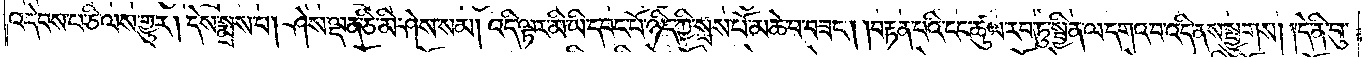འདེབས་པ་ཅི་ལས་གྱུར། དེས་སྨྲས་པ། ཤེས་ལྡན་ཅི་མི་ཤེས་སམ། འདི་ལྟར་མི་ཡི་དབང་པོ་ཉིད་ཀྱི་སྲས་པོ་མཆེ་བ་བཟང༌། །བརྟན་པའི་ངང་ཚུལ་རབ་ཏུ་སྦྱིན་ལ་དགའ་བ་འདི་ནས་སྤྱུགས། །དེ་ནི་བུ་
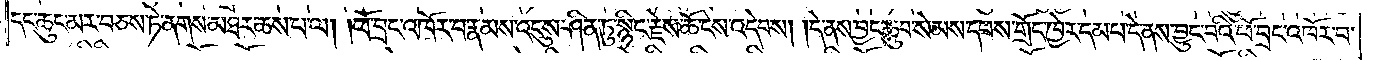དང་ཆུང་མར་བཅས་ཏེ་ནགས་མཐར་ཆས་པ་ལ། །ཕོ་བྲང་འཁོར་བ་རྣམས་འདུས་ཤིན་ཏུ་སྙིང་རྗེས་ཆོ་ངེས་འདེབས། །དེ་ནས་བྱང་ཆུབ་སེམས་དཔས་གྲོང་ཁྱེར་དམ་པ་དེ་ནས་བྱུང་བའི་ཕོ་བྲང་འཁོར་བ་
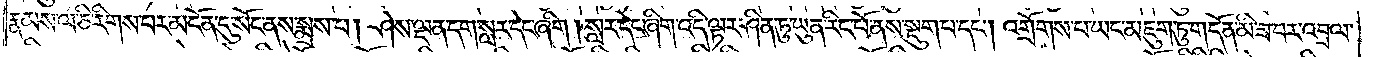རྣམས་ལ་ཅི་རིགས་པར་མངོན་དུ་སོང་ནས་སྨྲས་པ། ཤེས་ལྡན་དག་སླར་དེང་ཞིག །སླར་དེང་ཞིག་འདི་ལྟར་ཤིན་ཏུ་ཡུན་རིང་པོ་ནས་སྡུག་པ་དང༌། འགྲོགས་པ་ཡང་མཇུག་ཏུ་གདོན་མི་ཟ་བར་འབྲལ་
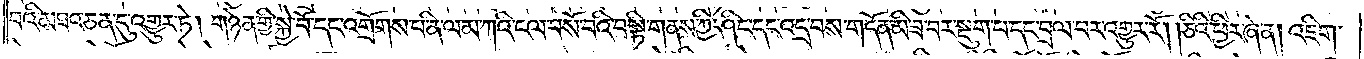བའི་མཐའ་ཅན་དུ་འགྱུར་ཏེ། གཉེན་གྱི་སྐྱེ་བོ་དང་འགྲོགས་པ་ནི་ལམ་ཀའི་ངལ་བསོ་བའི་བསྟི་གནས་ཀྱི་ཤིང་དང་འདྲ་བས་གདོན་མི་ཟ་བར་སྡུག་པ་དང་བྲལ་བར་འགྱུར་རོ། །ཅིའི་ཕྱིར་ཞེ་ན། འཇིག་
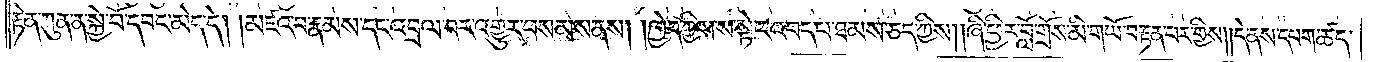རྟེན་ཀུན་ན་སྐྱེ་བོ་དབང་མེད་དེ། །མཛའ་བ་རྣམས་དང་འབྲལ་བར་འགྱུར་བསམས་ནས། །ཁྱེད་ཀྱིས་ས་སྟེང་འབད་པ་ཐམས་ཅད་ཀྱིས། །ཞི་ཕྱིར་བློ་གྲོས་མི་གཡོ་བརྟན་པར་གྱིས། །དེ་ནས་དཔག་ཚད་
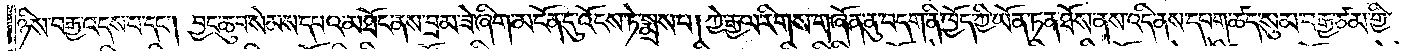ཉིས་བརྒྱ་འདས་པ་དང༌། བྱང་ཆུབ་སེམས་དཔའ་མཐོང་ནས་བྲམ་ཟེ་ཞིག་མངོན་དུ་འོངས་ཏེ་སྨྲས་པ། ཀྱེ་རྒྱལ་རིགས་གཞོན་ནུ་བདག་ནི་ཁྱོད་ཀྱི་ཡོན་ཏན་ཐོས་ནས་འདི་ནས་དཔག་ཚད་སུམ་བརྒྱ་ཙམ་གྱི་
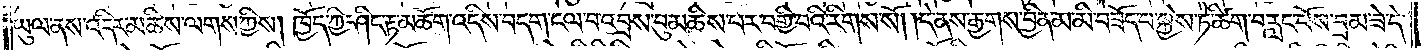ཡུལ་ནས་འདིར་མཆིས་ལགས་ཀྱིས། ཁྱོད་ཀྱི་ཤིང་རྟ་མཆོག་འདིས་བདག་ངལ་བ་འབྲས་བུ་མཆིས་པར་བགྱི་བའི་རིགས་སོ། །དེ་ནས་རྒྱགས་བྱིན་མ་མི་བཟོད་པ་སྐྱེས་ཏེ་ཚིག་བརླང་པོས་བྲམ་ཟེ་དེ་
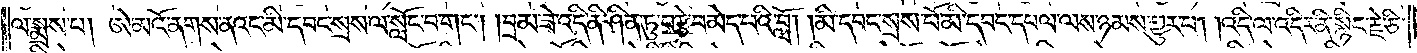ལ་སྨྲས་པ། ཨེ་མའོ་ནགས་ནའང་མི་དབང་སྲས་ལ་སློང་བ་གང༌། །བྲམ་ཟེ་འདི་ནི་ཤིན་ཏུ་བརྩེ་བ་མེད་པའི་བློ། །མི་དབང་སྲས་པོ་མི་དབང་དཔལ་ལས་ཉམས་གྱུར་པ། །འདི་ལ་འདིར་ནི་སྙིང་རྗེ་ཅི་
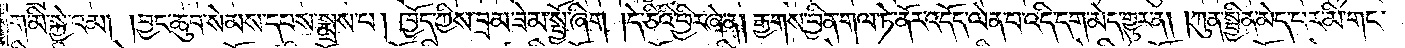ག་མི་སྐྱེ་འམ། །བྱང་ཆུབ་སེམས་དཔས་སྨྲས་པ། ཁྱོད་ཀྱིས་བྲམ་ཟེ་མ་སྤྱོ་ཞིག །དེ་ཅིའི་ཕྱིར་ཞེ་ན། རྒྱགས་བྱིན་གལ་ཏེ་ནོར་འདོད་ལེན་པ་འདི་དག་མེད་གྱུར་ན། །ཀུན་སྦྱིན་མེད་པར་མི་གང་
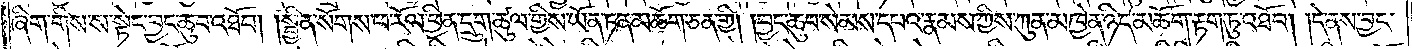ཞིག་གིས་ས་སྟེང་བྱང་ཆུབ་འཐོབ། །སྦྱིན་སོགས་ཕ་རོལ་ཕྱིན་དྲུག་ཚུལ་གྱིས་ཡོན་ཏན་མཆོག་ཅན་གྱི། །བྱང་ཆུབ་སེམས་དཔའ་རྣམས་ཀྱིས་ཀུན་མཁྱེན་ཉིད་མཆོག་རྟག་ཏུ་འཐོབ། །དེ་ནས་བྱང་
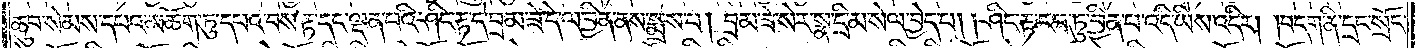ཆུབ་སེམས་དཔའ་མཆོག་ཏུ་དཔའ་བས་རྟ་དང་ལྡན་པའི་ཤིང་རྟ་དེ་བྲམ་ཟེ་དེ་ལ་བྱིན་ནས་སྨྲས་པ། བྲམ་ཟེ་སེར་སྣ་དྲི་མ་སེལ་བྱེད་པ། །ཤིང་རྟ་རབ་ཏུ་བྱིན་པ་འདི་ཡིས་འདིར། །བདག་ནི་དྲང་སྲོང་
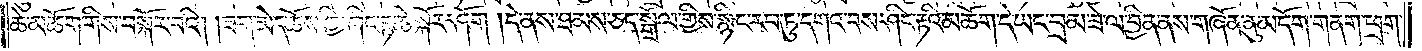ཆེ་མཆོག་གིས་བསྐོར་བའི། །ཟག་མེད་ཆོས་ཀྱི་ཤིང་རྟ་ཆེ་སྐོར་ཤོག །དེ་ནས་ཐམས་ཅད་སྒྲོལ་གྱིས་སྙིང་རབ་ཏུ་དགའ་བས་ཤིང་རྟའི་མཆོག་དེ་ཡང་བྲམ་ཟེ་ལ་བྱིན་ནས་གཞོན་ནུ་མདོག་གནག་ཕྲག་
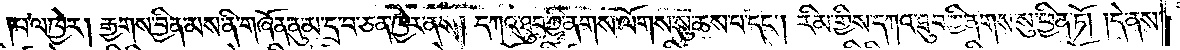།པ་ལ་ཁྱེར། རྒྱགས་བྱིན་མས་ནི་གཞོན་ནུ་མ་དྲ་བ་ཅན་ཁྱེར་ནས། དཀའ་ཐུབ་ཀྱི་ནགས་ལོགས་སུ་ཆས་པ་དང༌། རིམ་གྱིས་དཀའ་ཐུབ་ཀྱི་ནགས་སུ་ཕྱིན་ཏོ། །དེ་ནས་
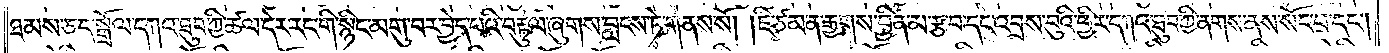ཐམས་ཅད་སྒྲོལ་དཀའ་ཐུབ་ཀྱི་ཚལ་དེར་རང་གི་སྙིང་མགུ་བར་བྱེད་པའི་བརྟུལ་ཞུགས་བླངས་ཏེ་གནས་སོ། །ཇི་ཙམ་ན་རྒྱགས་བྱིན་མ་རྩ་བ་དང་འབྲས་བུའི་ཕྱིར་དཀའ་ཐུབ་ཀྱི་ནགས་ནས་སོང་བ་དང༌།
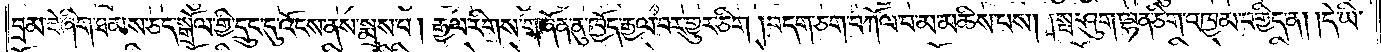བྲམ་ཟེ་ཞིག་ཐམས་ཅད་སྒྲོལ་གྱི་དྲུང་དུ་འོངས་ནས་སྨྲས་པ། རྒྱལ་རིགས་གཞོན་ནུ་ཁྱོད་རྒྱལ་བར་གྱུར་ཅིག །བདག་ཅག་བཀོལ་བ་མ་མཆིས་པས། །སྤ་ཤུག་ལྷན་ཅིག་འཁྱམ་བགྱིད་ན། །དེ་ཡི་
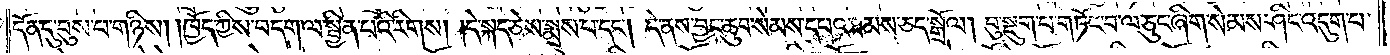དོན་དུ་བུས་པ་གཉིས། །ཁྱོད་ཀྱིས་བདག་ལ་སྦྱིན་པའི་རིགས། །དེ་སྐད་ཅེས་སྨྲས་པ་དང༌། དེ་ནས་བྱང་ཆུབ་སེམས་དཔའ་ཐམས་ཅད་སྒྲོལ། བུ་སྡུག་པ་གཏོང་བ་ལ་ཅུང་ཞིག་སེམས་ཤིང་འདུག་པ་
